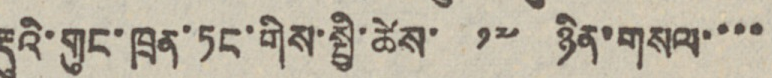རྡུའི་གུང་ཁྲན་ཏང་གིས་སྤྱི་ཚེས་ ༡༧ ཉིན་གསལ་་་་
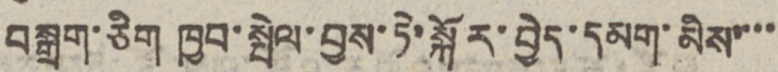བསྒྲག་ཅིག ཁྱབ་སྤེལ་བྱས་ཏེ་སྐོར་བྱེད་དམག་མིས་་་་
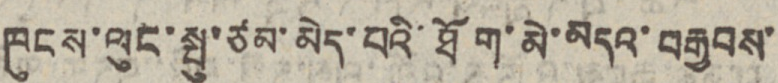ཁུངས་ལུང་སྤུ་ཙམ་མེད་པའི་ཐོག་མེ་མདའ་བརྒྱབས་
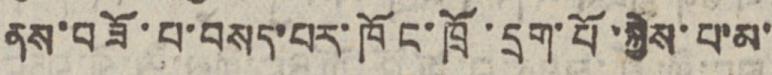ནས་བཟོ་པ་བསད་པར་ཁོང་ཁྲོ་དྲག་པོ་སྐྱེས་པ་མ་
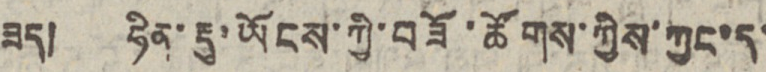ཟད། ཧིན་རྡུ་ཡོངས་ཀྱི་བཟོ་ཚོགས་ཀྱིས་ཀྱང་ད་
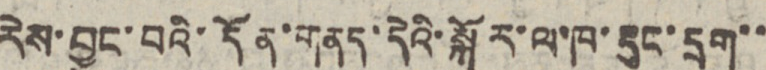རེས་བྱུང་བའི་དོན་གནད་དེའི་སྐོར་ལ་ཁ་རྡུང་དྲག་་
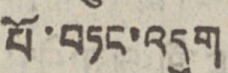པོ་བཏང་འདུག
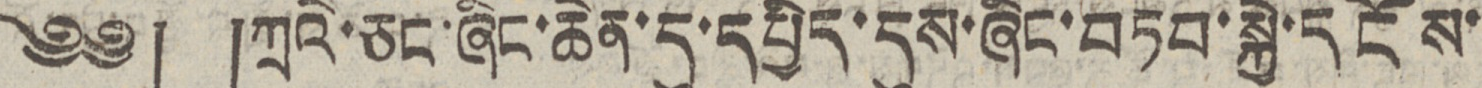༄༅། །ཀྲའེ་ཅང་ཞིང་ཆེན་དུ་དཔྱིད་དུས་ཞིང་བཏབ་སྐྱེ་དངོས་
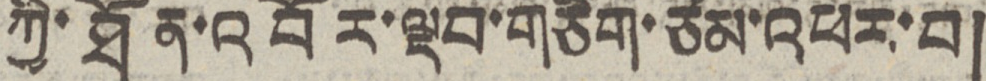ཀྱི་ཐོན་འབོར་ལྡབ་གཅིག་ཙམ་འཕར་བ།
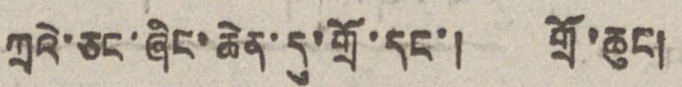ཀྲའེ་ཅང་ཞིང་ཆེན་དུ་གྲོ་དང་། གྲོ་ཆུང།
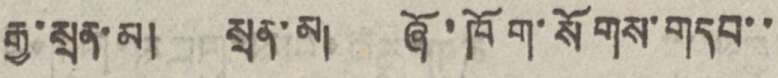རྒྱ་སྲན་མ། སྲན་མ། ཞོ་ཁོག་སོགས་གདབ་་
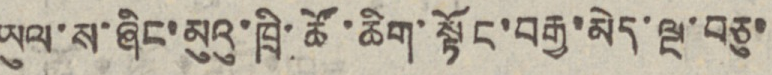ཡུལ་ས་ཞིང་མུའུ་ཁྲི་ཚོ་ཆིག་སྟོང་བརྒྱ་མེད་ལྔ་བཅུ་
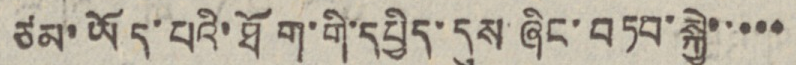ཙམ་ཡོད་པའི་ཐོག་གི་དཔྱིད་དུས ཞིང་བཏབ་སྐྱེ་་་་་
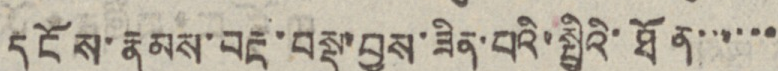དངོས་རྣམས་བརྔ་བསྡུ་བྱས་ཟིན་པའི་སྤྱིའི་ཐོན་་་་་་
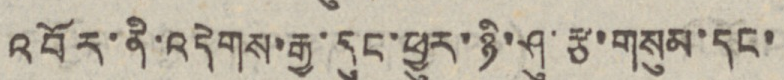འབོར་ནི་འདེགས་རྒྱ་དུང་ཕྱུར་ཉི་ཤུ་རྩ་གསུམ་དང་
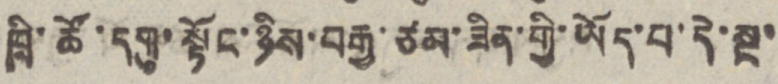ཁྲི་ཚོ་དགུ་སྟོང་ཉིས་བརྒྱ་ཙམ་ཟིན་གྱི་ཡོད་པ་དེ་སྔ་
